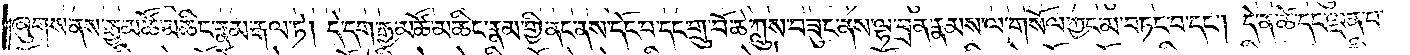ཞུགས་ནས་རྒྱ་མཚོ་མཆིང་རྣམ་རྒལ་ཏེ། དེ་དག་རྒྱ་མཚོ་མཆིང་རྣམ་གྱི་ནང་ནས་དོང་བ་དང་གྲུ་བོ་ཆེ་ཀླུས་བཟུང་ནས་ལྷ་བྲན་རྣམས་ལ་གསོལ་ཀྱང་མ་བཏང་བ་དང༌། དེ་ན་ཚེ་དང་ལྡན་པ་
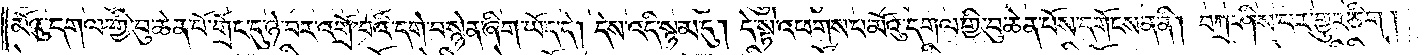མོའུ་དགལ་གྱི་བུ་ཆེན་པོ་གྲོང་དུ་ཉེ་བར་འགྲོ་བའི་དགེ་བསྙེན་ཞིག་ཡོད་དེ། དེས་འདི་སྙམ་དུ། དེ་སྟེ་འཕགས་པ་མོའུ་དགལ་གྱི་བུ་ཆེན་པོས་དགོངས་ན་ནི། བཀྲ་ཤིས་པར་གྱུར་ཅིག །
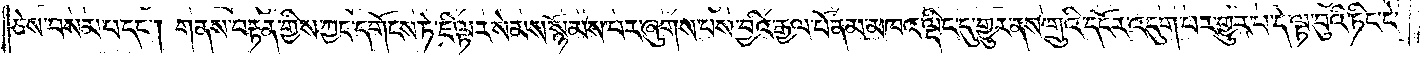ཅེས་བསམ་པ་དང༌། གནས་བརྟན་གྱིས་ཀྱང་དགོངས་ཏེ་ཇི་ལྟར་སེམས་སྙོམས་པར་ཞུགས་པས་བྱའི་རྒྱལ་པོ་ནམ་མཁའ་ལྡིང་དུ་གྱུར་ནས་གྲུའི་དངོར་འདུག་པར་གྱུར་པ་དེ་ལྟ་བུའི་ཏིང་ངེ་
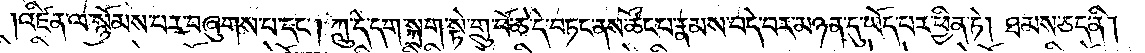འཛིན་ལ་སྙོམས་པར་བཞུགས་པ་དང༌། ཀླུ་དེ་དག་སྐྲག་སྟེ་གྲུ་བོ་ཆེ་དེ་བཏང་ནས་ཚོང་པ་རྣམས་བདེ་བར་མཉན་དུ་ཡོད་པར་ཕྱིན་ཏེ། ཐམས་ཅད་ནི།
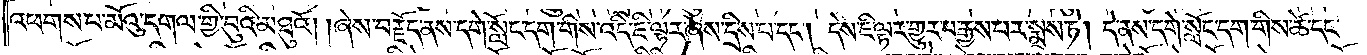འཕགས་པ་མོའུ་དགལ་གྱི་བུའི་མཐུའོ། །ཞེས་བརྗོད་ནས་དགེ་སློང་དག་གིས་འདི་ཇི་ལྟར་ཞེས་དྲིས་པ་དང༌། དེས་ཇི་ལྟར་གྱུར་པ་རྒྱས་པར་སྨྲས་ཏེ། དེ་ནས་དགེ་སློང་དག་གིས་ཚེ་དང་
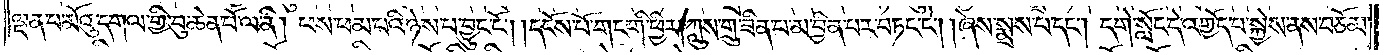ལྡན་པ་མོའུ་དགལ་གྱི་བུ་ཆེན་པོ་ལ་ནི། ཕས་ཕམ་པའི་ཉེས་པ་བྱུང་ངོ༌། །དངོས་པོ་གང་གི་ཕྱིར། ཀླུས་གྲུ་ཟིན་པ་མ་བྱིན་པར་བཏང་ངོ༌། །ཞེས་སྨྲས་པ་དང༌། དགེ་སློང་དེ་འགྱོད་པ་སྐྱེས་ནས་བཅོམ་
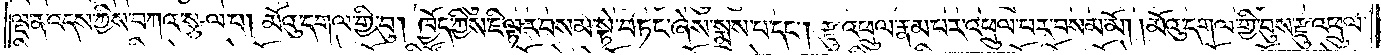ལྡན་འདས་ཀྱིས་བཀའ་སྩལ་པ། མོའུ་དགལ་གྱི་བུ། ཁྱོད་ཀྱིས་ཇི་ལྟར་བསམ་སྟེ་བཏང་ཞེས་སྨྲས་པ་དང༌། རྫུ་འཕྲུལ་རྣམ་པར་འཕྲུལ་པར་བསམ་མོ། །མོའུ་དགལ་གྱི་བུས་རྫུ་འཕྲུལ་
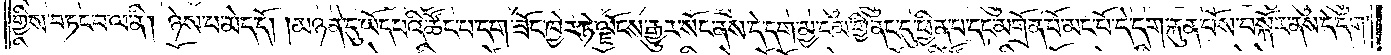གྱིས་བཏང་བ་ལ་ནི། ཉེས་པ་མེད་དོ། །མཉན་དུ་ཡོད་པའི་ཚོང་པ་དག་ཟོང་ཁྱེར་ཏེ་ལྗོངས་རྒྱུར་སོང་ནས་དེ་དག་མྱ་ངམ་གྱི་ནང་དུ་ཕྱིན་པ་དང་མགྲོན་པོ་མང་པོ་དེ་དག་རྐུན་པོས་བསྐོར་ནས་དེ་དག་
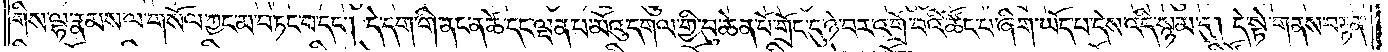གིས་ལྷ་རྣམས་ལ་གསོལ་ཀྱང་མ་བཏང་བ་དང༌། དེ་དག་གི་ནང་ན་ཚེ་དང་ལྡན་པ་མོའུ་དགལ་གྱི་བུ་ཆེན་པོ་གྲོང་དུ་ཉེ་བར་འགྲོ་བའི་ཚོང་པ་ཞིག་ཡོད་པ་དེས་འདི་སྙམ་དུ། དེ་སྟེ་གནས་བརྟན་
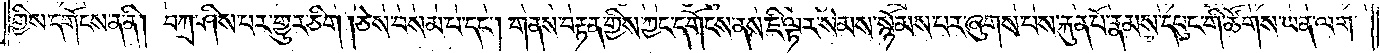གྱིས་དགོངས་ན་ནི། བཀྲ་ཤིས་པར་གྱུར་ཅིག །ཅེས་བསམ་པ་དང༌། གནས་བརྟན་གྱིས་ཀྱང་དགོངས་ནས་ཇི་ལྟར་སེམས་སྙོམས་པར་ཞུགས་པས་རྐུན་པོ་རྣམས་དཔུང་གི་ཚོགས་ཡན་ལག་
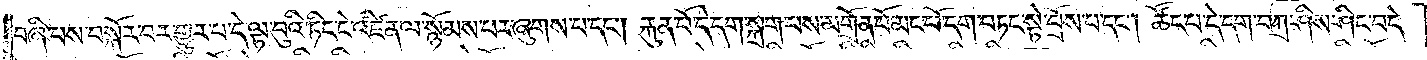བཞི་པས་བསྐོར་བར་གྱུར་པ་དེ་ལྟ་བུའི་ཏིང་ངེ་འཛིན་ལ་སྙོམས་པར་ཞུགས་པ་དང༌། རྐུན་པོ་དེ་དག་སྐྲག་པས་མགྲོན་པོ་མང་པོ་དག་བཏང་སྟེ་བྲོས་པ་དང༌། ཚོང་པ་དེ་དག་བཀྲ་ཤིས་ཤིང་བདེ་
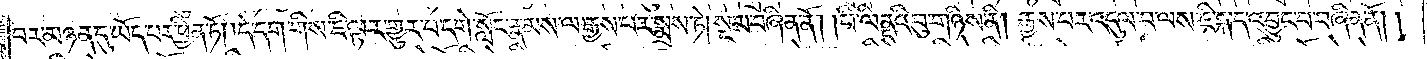བར་མཉན་དུ་ཡོད་པར་ཕྱིན་ཏོ། །དེ་དག་གིས་ཇི་ལྟར་གྱུར་པ་དགེ་སློང་རྣམས་ལ་རྒྱས་པར་སྨྲས་ཏེ། སྔ་མ་བཞིན་ནོ། །པི་ལིནྡའི་བུ་གཉིས་ནི། རྒྱས་པར་འདུལ་བ་ལས་ཇི་སྐད་འབྱུང་བ་བཞིན་ནོ། །
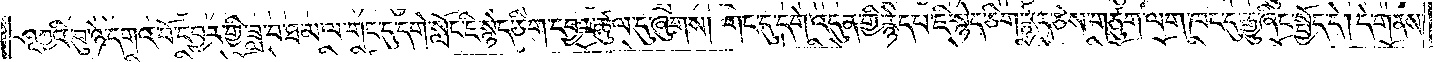ཤཱཀྱའི་བུ་ཉེ་དགའ་བོ་དབྱར་གྱི་ཟླ་བ་ཐ་མ་ལ་གང་དུ་དགེ་སློང་ཇི་སྙེད་ཅིག་དབྱར་ཚུལ་དུ་ཞུགས། གང་དུ་དགེ་འདུན་གྱི་རྙེད་པ་ཇི་སྙེད་ཅིག་རྙེད་ཅེས་གཙུག་ལག་ཁང་དུ་རྒྱུ་ཞིང་སྤྱོད་དེ། དེ་གནས་
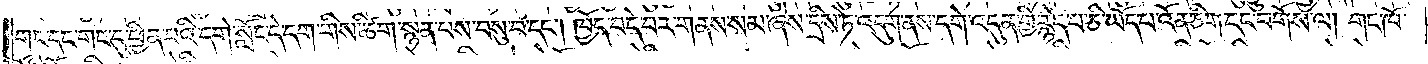གང་དང་གང་དུ་ཕྱིན་པའི་དགེ་སློང་དེ་དག་གིས་ཚིག་སྙན་པས་བསུ་བ་དང༌། ཁྱོད་བདེ་བར་གནས་སམ་ཞེས་དྲིས་ཏེ་འདུག་ནས་དགེ་འདུན་གྱི་རྙེད་པ་ཅི་ཡོད་པ་འོན་ཅིག་དང་བགོས་ལ། གང་ཁོ་
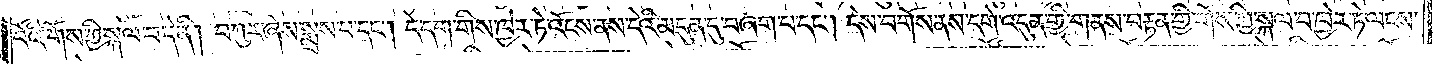བོའི་གོས་ཀྱི་སྐལ་བ་དེ་ནི། བཀུར་ཞེས་སྨྲས་པ་དང༌། དེ་དག་གིས་ཁྱེར་ཏེ་འོངས་ནས་དེའི་མདུན་དུ་བཞག་པ་དང༌། དེས་བགོས་ནས་དགེ་འདུན་གྱི་གནས་བརྟན་གྱི་གོས་ཀྱི་སྐལ་བ་ཁྱེར་ཏེ་ལངས་
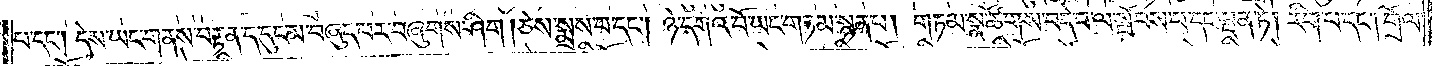པ་དང༌། དེས་ཡང་གནས་བརྟན་ད་དུང་མ་བཞུད་པར་བཞུགས་ཤིག །ཅེས་སྨྲས་པ་དང༌། ཉེ་དགའ་བོ་ཡང་གཏམ་སྙན་པ། གཏམ་སྣ་ཚོགས་བདེ་བ་ལ་སྤོབས་པ་དང་ལྡན་ཏེ། རིག་པ་དང༌། གྲོལ་
